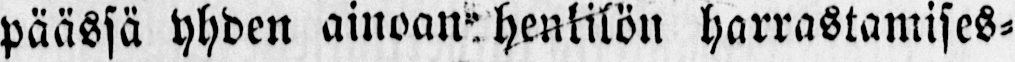päässä yhden ainoan henkilön harrastamises-
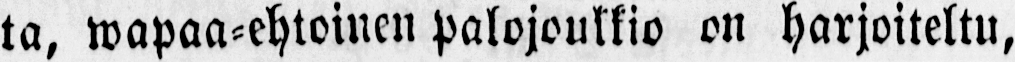ta, wapaa-ehtoinen palojoukkio on harjoiteltu,
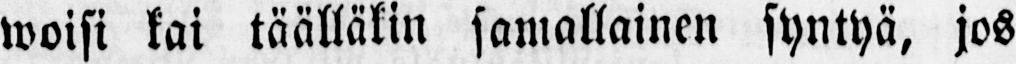woisi kai täälläkin samallainen syntyä, jos
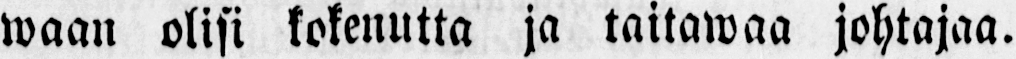waan olisi kokenutta ja taitawaa johtajaa.
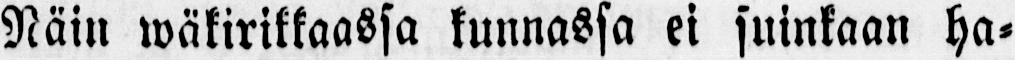Näin wäkirikkaassa kunnassa ei suinkaan ha-
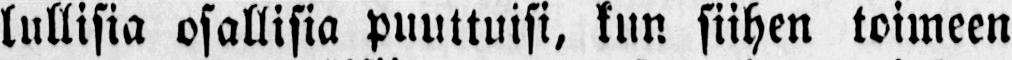lullisia osallisia puuttuisi, kun siihen toimeen
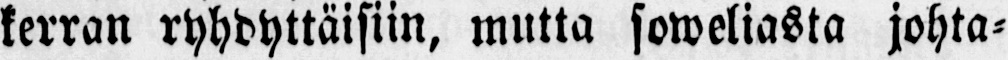kerran ryhdyttäisiin, mutta soweliasta johta-
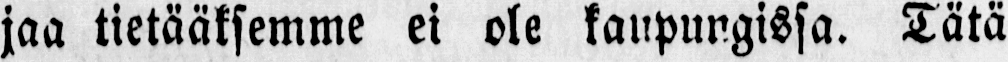jaa tietääksemme ei ole kaupungissa. Tätä
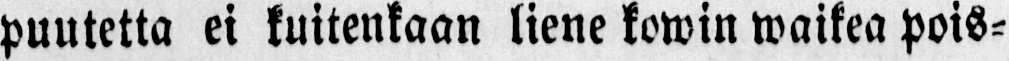puutetta ei kuitenkaan liene kowin waikea pois-
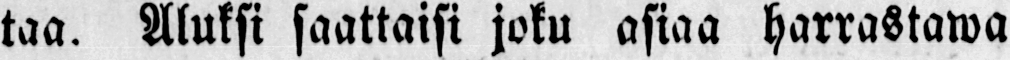taa. Aluksi saattaisi joku asiaa harrastawa
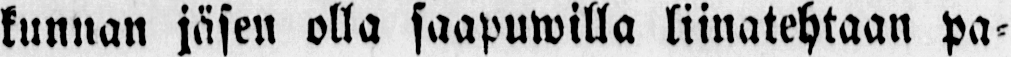kunnan jäsen olla saapuwilla liinatehtaan pa-
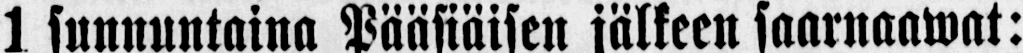1 sunnuntaina Pääsiäisen jälkeen saarnaawat:
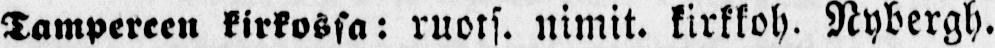Tampereen kirkossa: ruots. nimit. kirkkoh. Nybergh.
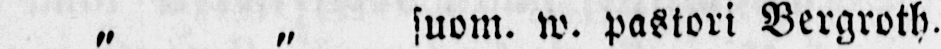„ „ suom. w. pastori Bergroth.
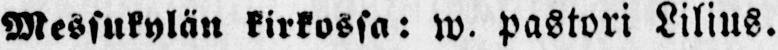Messukylän kirkossa: w. pastori Lilius.
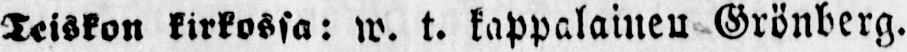Teiskon kirkossa: w. t. kappalaineu Grönberg.
